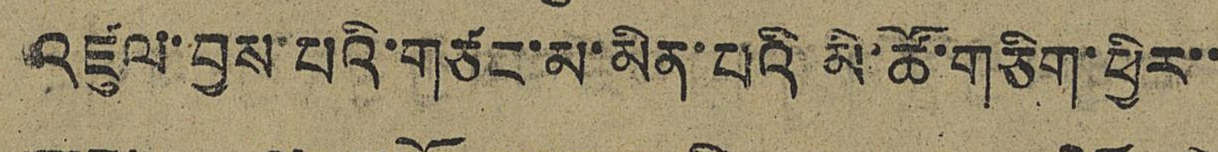འཛུལ་བྱས་པའི་གཙང་མ་མིན་པའི་མི་ཚོ་གཅིག་ཕྱིར་་
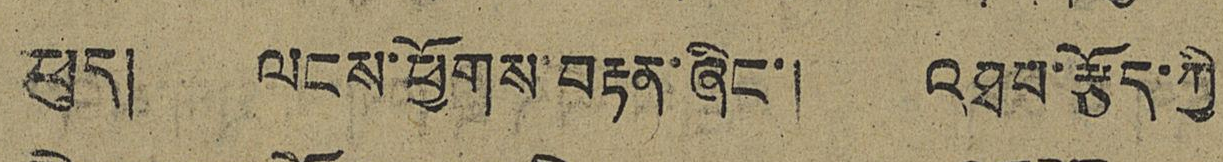ཕུད། ལངས་ཕྱོགས་བརྟན་ཞིང་། འཐབ་རྩོད་ཀྱི
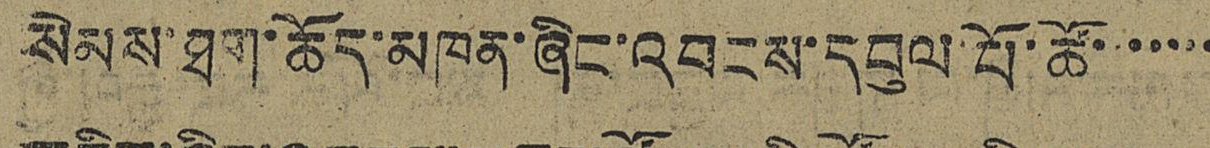སེམས་ཐག་ཆོད་མཁན་ཞིང་འབངས་དབུལ་པོ་ཚོ་་་་་་
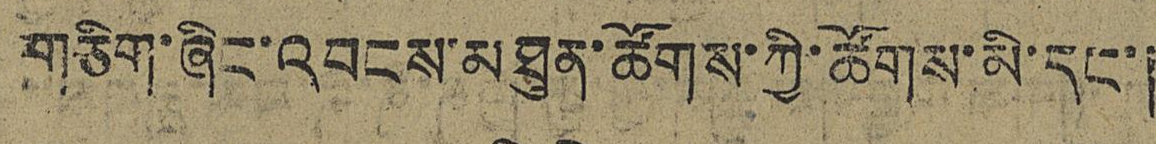གཅིག་ཞིང་འབངས་མཐུན་ཚོགས་ཀྱི་ཚོགས་མི་དང་།
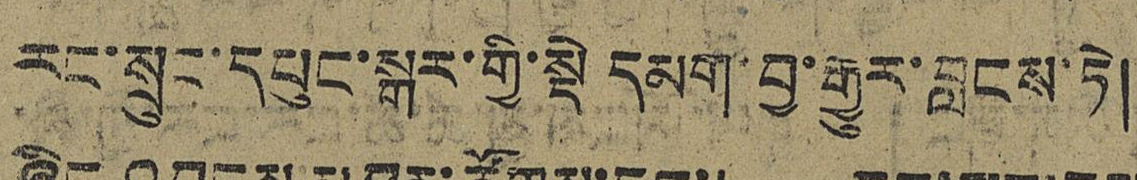རང་སྲུང་དཔུང་སྒར་གྱི་སྡེ་དམག་བྱ་རྒྱུར་བླངས་ཏེ།
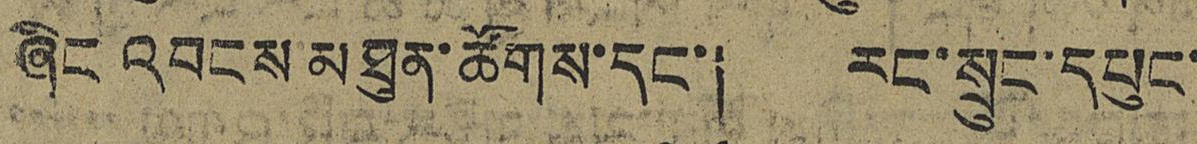ཞིང འབངས་མཐུན་ཚོགས་དང་། རང་སྲུང་དཔུང་
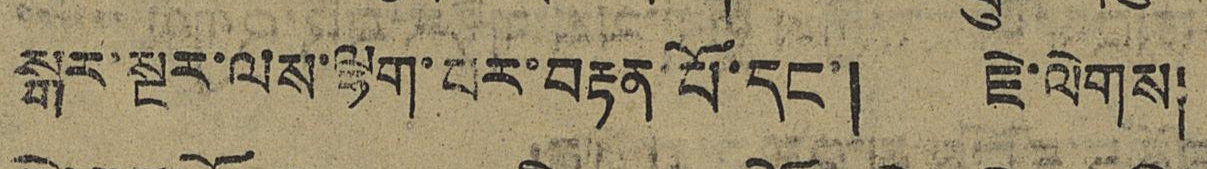སྒར་སྔར་ལས་ལྷག་པར་བརྟན་པོ་དང་། ཇེ་ལེགས།
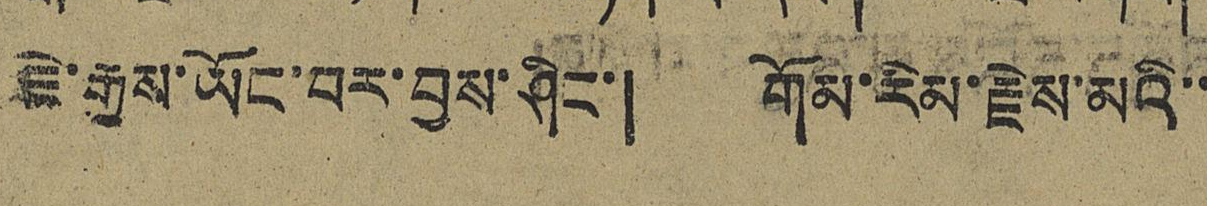ཇེ་རྒྱས་ཡོང་བར་བྱས་ཤིང་། གོམ་རིམ་རྗེས་མའི་་
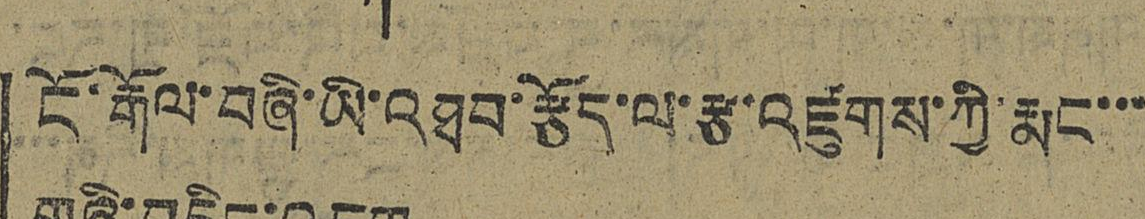ངོ་རྒོལ་བཞི་ཡི་འཐབ་རྩོད་ལ་རྩ་འཛུགས་ཀྱི་རྨང་་་
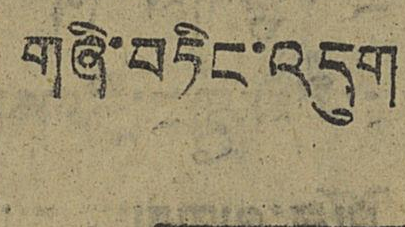གཞི་བཏང་འདུག
